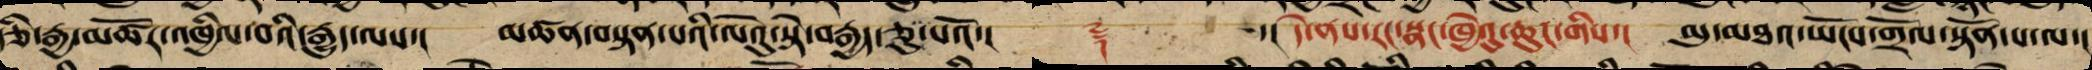རྩི་རྒྱ་མཚོར་འཁྱིལ་བའི་རྒྱུད་ལས་། མཚན་བསྟན་པའི་ལེའུ་སྟེ་བརྒྱད་ཅུ་པའོ་།། ༈ ་། དེ་ནས་རང་སྣང་ཁྱེའུ་ཆུང་གིས་། མུ་མཐའ་ཡོངས་གྲོལ་སྟོན་པ་ལ་།
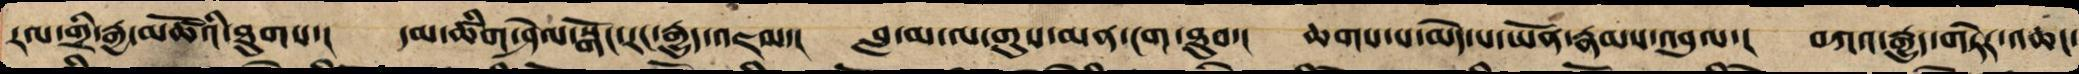རལ་གྲི་རྒྱ་མཚོའི་ཐུགས་། དམ་ཚིག་ཤེལ་སྒོང་རང་རྒྱུད་འཇམ་། བླ་མ་ལ་གུས་མན་ངག་ཐུབ་། ཆགས་པ་མེད་པ་ཡོན་རྣམས་འབུལ་། བཀའ་རྒྱུད་གཏེར་འཆང་
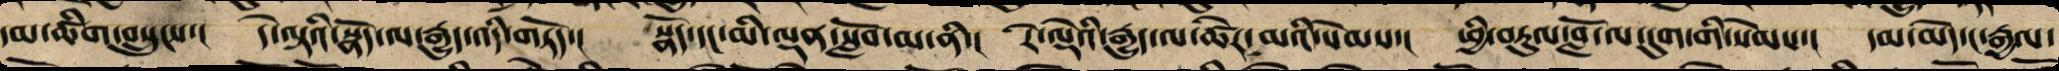དམ་ཚིག་བསྲུངས་། དེ་ལྟའི་སྣོད་ལ་རྒྱུད་འདི་གཏོད་། སྣོད་དང་མི་ལྡན་སློབ་མ་ནི་། རེ་ལྡེའི་རྒྱུད་ལ་ཚེར་མའི་སེམས་། ཕྱིར་བཏུལ་བློ་ལ་དུག་གི་སེམས་། དམ་མེད་ང་རྒྱལ་
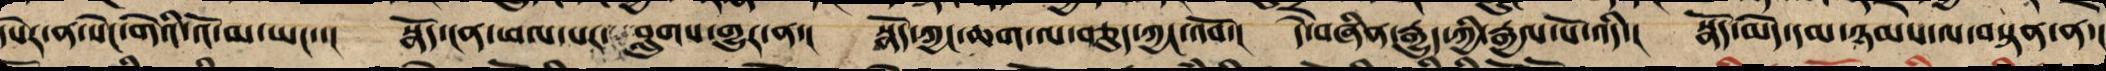དཔེར་ན་སེང་གེའི་འོ་མ་ཡང་་། སྣོད་ངན་ཕལ་པར་ བླུགས་གྱུར་ན་། སྣོད་ཀྱང་ཆག་ལ་བཅུད་ཀྱང་འབོ་། དེ་བཞིན་རྒྱུད་ཀྱི་རྒྱལ་པོ་འདི་། སྣོད་མེད་དམ་ཉམས་ལ་བསྟན་ན་།
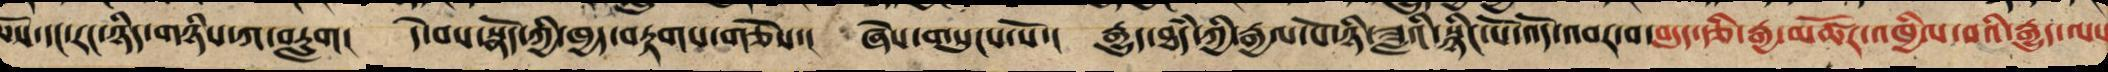ཆོས་དང་རང་ཉིད་གཉིས་ཀ་བརླག། དེ་བས་སྣོད་ཀྱི་ཁྱད་བརྟགས་གཅེས་། ཞེས་གསུངས་སོ་། རྒྱུད་ཐཾད་ཀྱི་རྒྱལ་པོ་ཉི་ཟླའི་སྙིང་པོ་འོད་འབར་བ་བདུད་རྩི་རྒྱ་མཚོར་འཁྱིལ་པའི་རྒྱུད་ལས
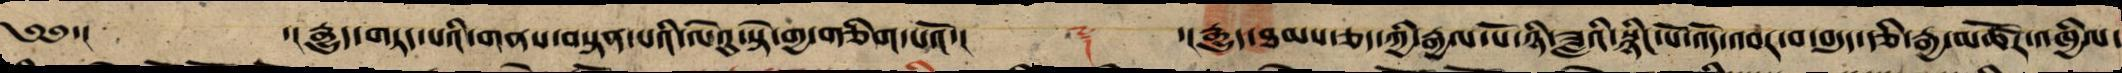༄༅་། ་། རྒྱུད་གཏད་པའི་གནས་བསྟན་པའི་ལེའུ་སྟེ་གྱ་གཅིག་པའོ་།། ༈ ་།རྒྱུད་ཐམས་ཅད་ཀྱི་རྒྱལ་པོ་ཉི་ཟླའི་སྙིང་པོ་འོད་འབར་བ་བདུད་རྩིའི་རྒྱ་མཚོར་འཁྱིལ་
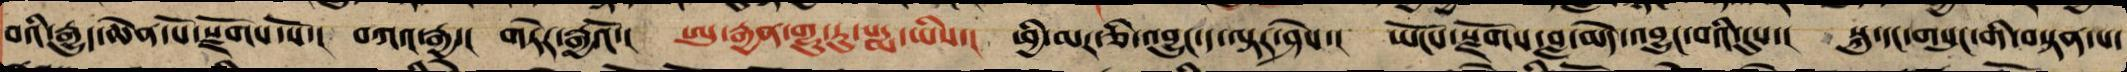བའི་རྒྱུད་ཆེན་པོ་སྫོགས་སོ་།། བཀའ་རྒྱ་། གཏེར་རྒྱའོ་། ཨུ་རྒྱན་གྷུ་རུ་པདྨ་ཡིས་། ཕྱི་མར་ཅི་འབྱུང་ད་ལྟར་ཤེས་། ཡོངས་སྫོགས་བླ་མེད་འབྱུང་བའི་དུས་། སྐུ་དང་གསུང་གི་བསྟན་པ་
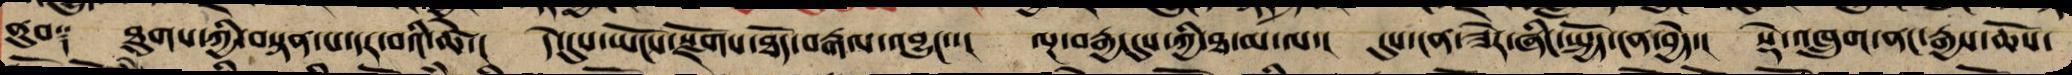ནུབ༑ ཐུགས་ཀྱི་བསྟན་པ་དར་བའི་ཚེ་། དེ་དུས་ཡོངས་རྫོགས་ཐོད་རྒལ་འབྱུང་་། ལྔ་བརྒྱ་དུས་ཀྱི་ཐ་མ་ལ་། དུས་ངན་ཟེར་ཞིང་སྤྱོད་ངན་བྱེད་། སྡེ་འཁྲུག་ནང་རྒྱས་ཆོས་
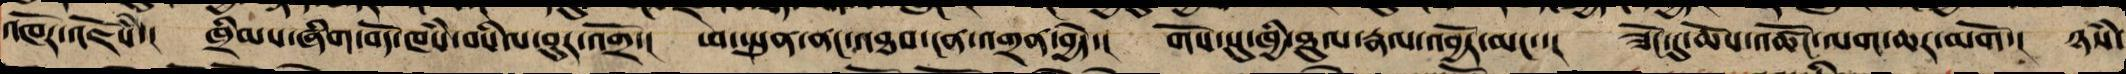འཁོར་འཇོཾས་། ཁྲིམས་ཞིག་བོད་ཁཾས་སིལ་བུར་འགྲོ་། ཕ་སྤུན་ནང་འཐབ་ངན་འགྲན་བྱེད་། གོས་སུ་ཁྱི་ཐུལ་རྣལ་འབྱོར་མང་་། ཟོང་དུ་ཆོས་འཚོང་ལག་ཆར་མགོ་། ཉཾས་
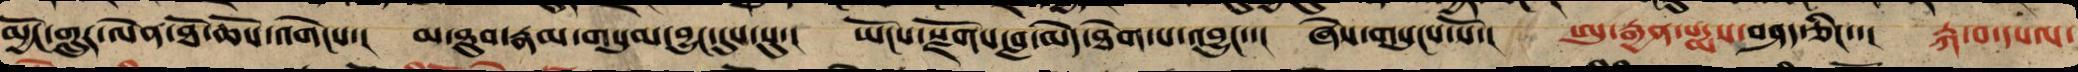མྱོང་གླུར་ལེན་ཐོ་ཆོས་འགེངས་། མི་ཐུབ་རྣམ་གསུམ་བྱུང་དུས་སུ་། ཡོངས་སྫོགས་བླ་མེད་ཐེག་པ་འབྱུང་་། ཞེས་གསུངས་སོ་། ཨུ་རྒྱན་པདྨས་བཤད་ཅིང་་། རྐ་བ་དཔལ་
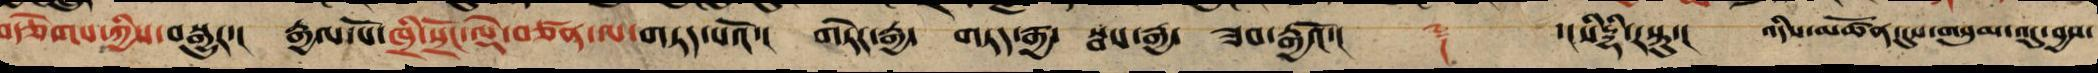བརྩེགས་ཀྱིས་བསྒྱུར་། རྒྱལ་པོ་ཁྲི་སྲོང་ལྡེ་བཙན་ལ་གཏད་པའོ་། གཏེར་རྒྱ་ གཏད་རྒྱ་ སྦས་རྒྱ་ ཟབ་རྒྱའོ་།། ༈ ་།སིདྡྷི་རསྟུ་། འདིས་མཚོན་དུས་གསུམ་འདུ་བྱས་
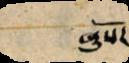ཞུསོཌ
